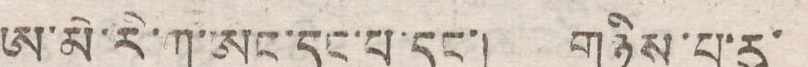ཨ་མི་རི་ཀ་ཨང་དང་པ་དང་། གཉིས་པ་རུ་
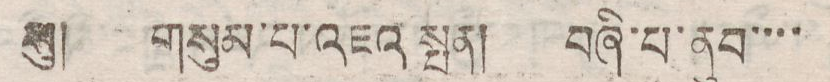སུ། གསུམ་པ་འཇའ་སྤན། བཞི་པ་ནུབ་་་་
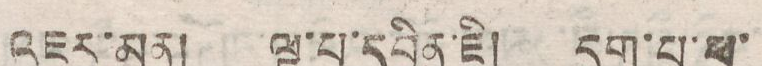འཇར་མན། ལྔ་པ་དབྱིན་ཇི། དྲུག་པ་ཕ་
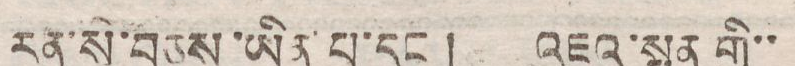རན་སི་བཅས་ཡིན་པ་དང་། འཇའ་སྤན གྱི་་
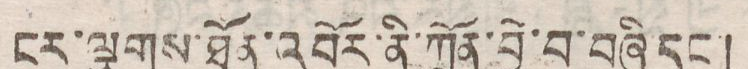ངར་ལྕགས་ཐོན་འབོར་ནི་ཀྲོན་བྱེ་བ་བཞི དང་།
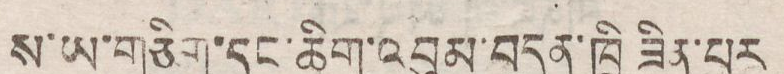ས་ཡ་གཅིག་དང་ཆིག་འབུམ་བདུན་ཁྲི ཟིན་པར
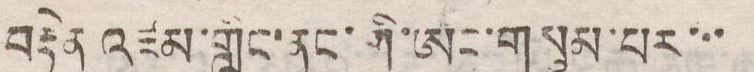བརྟེན འཛམ་གླིང་ནང་གི་ཨང་གསུམ་པར་་་
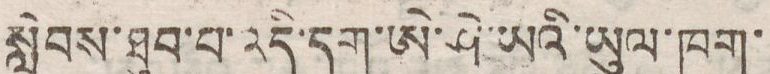སླེབས་ཐུབ་པ་འདི་དག་ཨེ་ཤེ་ཡའི་ཡུལ་ཁག་
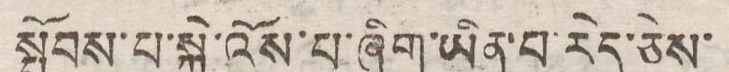སྤོབས་པ་སྐྱེ་འོས་པ་ཞིག་ཡིན་པ་རེད་ཅེས་
